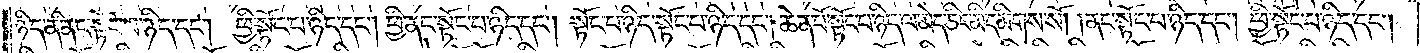ཉིད་ནི་ནང་སྟོང་པ་ཉིད་དང༌། ཕྱི་སྟོང་པ་ཉིད་དང༌། ཕྱི་ནང་སྟོང་པ་ཉིད་དང༌། སྟོང་པ་ཉིད་སྟོང་པ་ཉིད་དང༌། ཆེན་པོ་སྟོང་པ་ཉིད་ལ་མེད་ཅིང་མི་དམིགས་སོ། །ནང་སྟོང་པ་ཉིད་དང༌། ཕྱི་སྟོང་པ་ཉིད་དང༌།
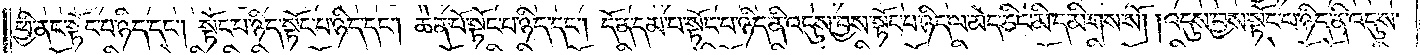ཕྱི་ནང་སྟོང་པ་ཉིད་དང༌། སྟོང་པ་ཉིད་སྟོང་པ་ཉིད་དང༌། ཆེན་པོ་སྟོང་པ་ཉིད་དང༌། དོན་དམ་པ་སྟོང་པ་ཉིད་ནི་འདུས་བྱས་སྟོང་པ་ཉིད་ལ་མེད་ཅིང་མི་དམིགས་སོ། །འདུས་བྱས་སྟོང་པ་ཉིད་ནི་འདུས་
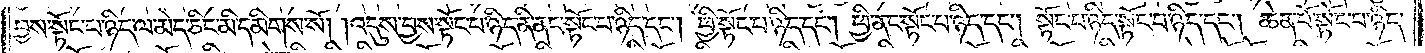བྱས་སྟོང་པ་ཉིད་ལ་མེད་ཅིང་མི་དམིགས་སོ། །འདུས་བྱས་སྟོང་པ་ཉིད་ནི་ནང་སྟོང་པ་ཉིད་དང༌། ཕྱི་སྟོང་པ་ཉིད་དང༌། ཕྱི་ནང་སྟོང་པ་ཉིད་དང༌། སྟོང་པ་ཉིད་སྟོང་པ་ཉིད་དང༌། ཆེན་པོ་སྟོང་པ་ཉིད་
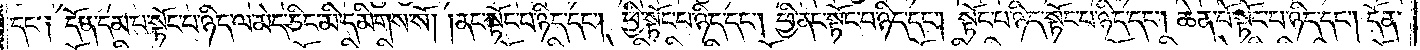དང༌། དོན་དམ་པ་སྟོང་པ་ཉིད་ལ་མེད་ཅིང་མི་དམིགས་སོ། །ནང་སྟོང་པ་ཉིད་དང༌། ཕྱི་སྟོང་པ་ཉིད་དང༌། ཕྱི་ནང་སྟོང་པ་ཉིད་དང༌། སྟོང་པ་ཉིད་སྟོང་པ་ཉིད་དང༌། ཆེན་པོ་སྟོང་པ་ཉིད་དང༌། དོན་
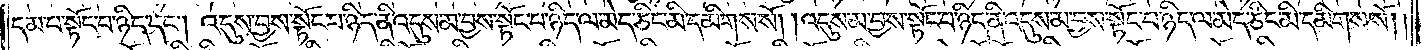དམ་པ་སྟོང་པ་ཉིད་དང༌། འདུས་བྱས་སྟོང་པ་ཉིད་ནི་འདུས་མ་བྱས་སྟོང་པ་ཉིད་ལ་མེད་ཅིང་མི་དམིགས་སོ། །འདུས་མ་བྱས་སྟོང་པ་ཉིད་ནི་འདུས་མ་བྱས་སྟོང་པ་ཉིད་ལ་མེད་ཅིང་མི་དམིགས་སོ། །
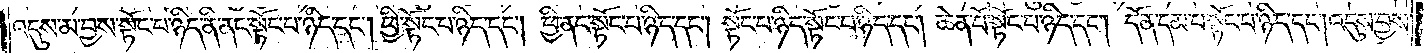འདུས་མ་བྱས་སྟོང་པ་ཉིད་ནི་ནང་སྟོང་པ་ཉིད་དང༌། ཕྱི་སྟོང་པ་ཉིད་དང༌། ཕྱི་ནང་སྟོང་པ་ཉིད་དང༌། སྟོང་པ་ཉིད་སྟོང་པ་ཉིད་དང༌། ཆེན་པོ་སྟོང་པ་ཉིད་དང༌། དོན་དམ་པ་སྟོང་པ་ཉིད་དང༌། འདུས་བྱས་
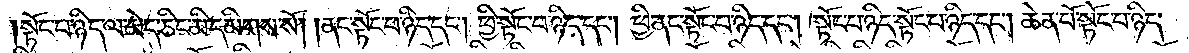སྟོང་པ་ཉིད་ལ་མེད་ཅིང་མི་དམིགས་སོ། །ནང་སྟོང་པ་ཉིད་དང༌། ཕྱི་སྟོང་པ་ཉིད་དང༌། ཕྱི་ནང་སྟོང་པ་ཉིད་དང༌། སྟོང་པ་ཉིད་སྟོང་པ་ཉིད་དང༌། ཆེན་པོ་སྟོང་པ་ཉིད་
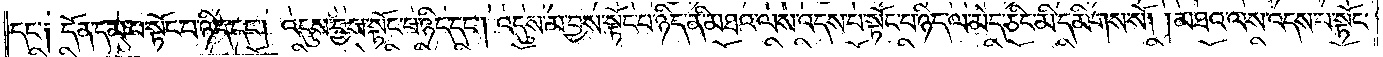དང༌། དོན་དམ་པ་སྟོང་པ་ཉིད་དང༌། འདུས་བྱས་སྟོང་པ་ཉིད་དང༌། འདུས་མ་བྱས་སྟོང་པ་ཉིད་ནི་མཐའ་ལས་འདས་པ་སྟོང་པ་ཉིད་ལ་མེད་ཅིང་མི་དམིགས་སོ། །མཐའ་ལས་འདས་པ་སྟོང་
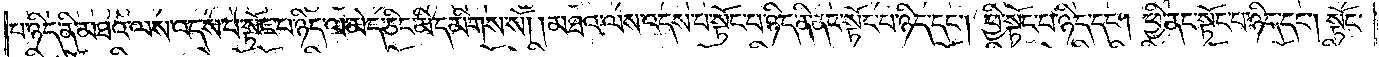པ་ཉིད་ནི་མཐའ་ལས་འདས་པ་སྟོང་པ་ཉིད་ལ་མེད་ཅིང་མི་དམིགས་སོ། །མཐའ་ལས་འདས་པ་སྟོང་པ་ཉིད་ནི་ནང་སྟོང་པ་ཉིད་དང༌། ཕྱི་སྟོང་པ་ཉིད་དང༌། ཕྱི་ནང་སྟོང་པ་ཉིད་དང༌། སྟོང་
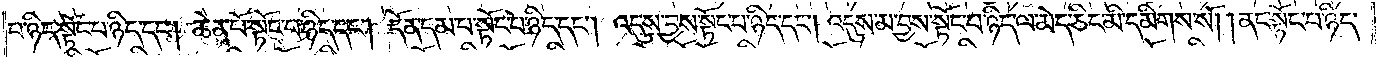པ་ཉིད་སྟོང་པ་ཉིད་དང༌། ཆེན་པོ་སྟོང་པ་ཉིད་དང༌། དོན་དམ་པ་སྟོང་པ་ཉིད་དང༌། འདུས་བྱས་སྟོང་པ་ཉིད་དང༌། འདུས་མ་བྱས་སྟོང་པ་ཉིད་ལ་མེད་ཅིང་མི་དམིགས་སོ། །ནང་སྟོང་པ་ཉིད་
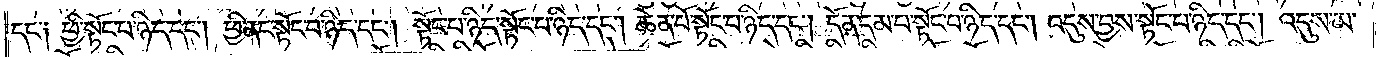དང༌། ཕྱི་སྟོང་པ་ཉིད་དང༌། ཕྱི་ནང་སྟོང་པ་ཉིད་དང༌། སྟོང་པ་ཉིད་སྟོང་པ་ཉིད་དང༌། ཆེན་པོ་སྟོང་པ་ཉིད་དང༌། དོན་དམ་པ་སྟོང་པ་ཉིད་དང༌། འདུས་བྱས་སྟོང་པ་ཉིད་དང༌། འདུས་མ་
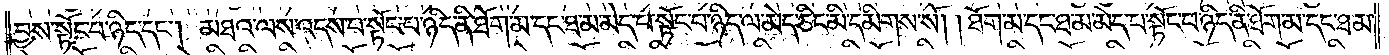བྱས་སྟོང་པ་ཉིད་དང༌། མཐའ་ལས་འདས་པ་སྟོང་པ་ཉིད་ནི་ཐོག་མ་དང་ཐ་མ་མེད་པ་སྟོང་པ་ཉིད་ལ་མེད་ཅིང་མི་དམིགས་སོ། །ཐོག་མ་དང་ཐ་མ་མེད་པ་སྟོང་པ་ཉིད་ནི་ཐོག་མ་དང་ཐ་མ་
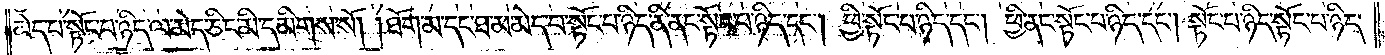མེད་པ་སྟོང་པ་ཉིད་ལ་མེད་ཅིང་མི་དམིགས་སོ། །ཐོག་མ་དང་ཐ་མ་མེད་པ་སྟོང་པ་ཉིད་ནི་ནང་སྟོང་པ་ཉིད་དང༌། ཕྱི་སྟོང་པ་ཉིད་དང༌། ཕྱི་ནང་སྟོང་པ་ཉིད་དང༌། སྟོང་པ་ཉིད་སྟོང་པ་ཉིད་
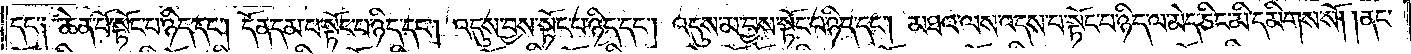དང༌། ཆེན་པོ་སྟོང་པ་ཉིད་དང༌། དོན་དམ་པ་སྟོང་པ་ཉིད་དང་འདུས་བྱས་སྟོང་པ་ཉིད་དང༌། འདུས་མ་བྱས་སྟོང་པ་ཉིད་དང༌། མཐའ་ལས་འདས་པ་སྟོང་པ་ཉིད་ལ་མེད་ཅིང་མི་དམིགས་སོ། །ནང་
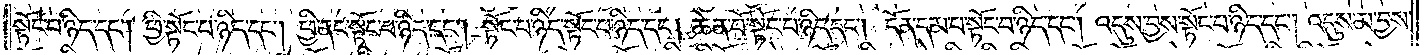སྟོང་པ་ཉིད་དང༌། ཕྱི་སྟོང་པ་ཉིད་དང༌། ཕྱི་ནང་སྟོང་པ་ཉིད་དང༌། སྟོང་པ་ཉིད་སྟོང་པ་ཉིད་དང༌། ཆེན་པོ་སྟོང་པ་ཉིད་དང༌། དོན་དམ་པ་སྟོང་པ་ཉིད་དང༌། འདུས་བྱས་སྟོང་པ་ཉིད་དང༌། འདུས་མ་བྱས་
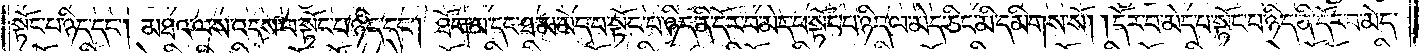སྟོང་པ་ཉིད་དང༌། མཐའ་ལས་འདས་པ་སྟོང་པ་ཉིད་དང༌། ཐོག་མ་དང་ཐ་མ་མེད་པ་སྟོང་པ་ཉིད་ནི་དོར་བ་མེད་པ་སྟོང་པ་ཉིད་ལ་མེད་ཅིང་མི་དམིགས་སོ། །དོར་བ་མེད་པ་སྟོང་པ་ཉིད་ནི་དོར་བ་མེད་
